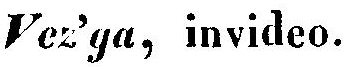Vez'ga, invideo.
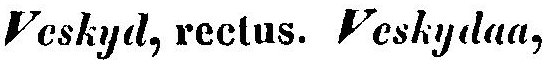Veskyd, rectus. Veskydaa,
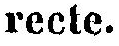recte.
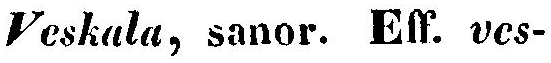Veskala, sanor. Eff. ves-
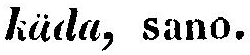käda, sano.
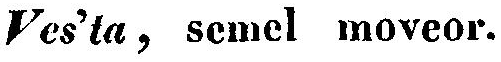Ves'ta, semel moveor.
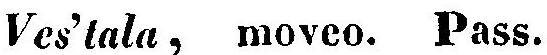Ves'tala, moveo. Pass.
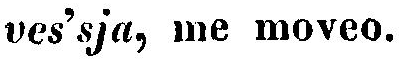ves'sja, me moveo.
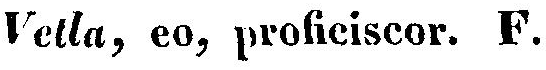Vetla, eo, proficiscor. F.
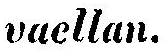vaellan.
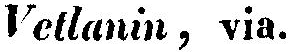Vetlanin, via.
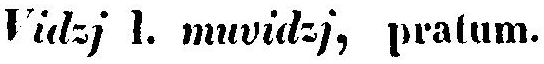Vidzj l. muvidzj, pratum.
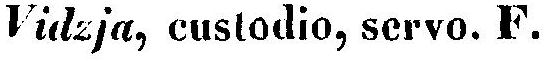Vidzja, custodio, servo. F.
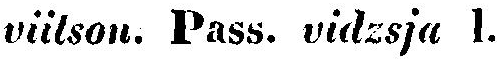viitson. Pass. vidzsja l.
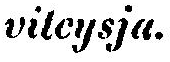vitcysja.
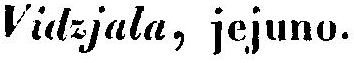Vidzjala, jejuno.
